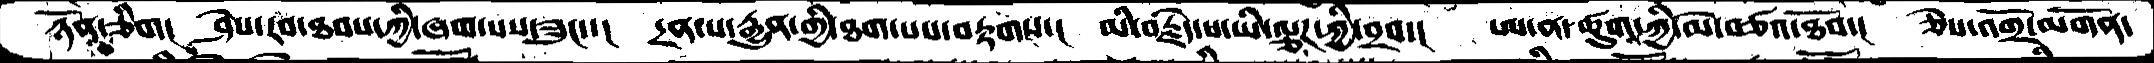ཉོན་ཅིག།  ཤེས་རབ་ཐབས་ཀྱི་ཞག་པས་ཟུང་་།  དྲན་པ་རྒྱུན་གྱི་ཐག་པས་བརྟགས་།  མི་བརྗེད་པ་ཡི་ལྕཌ་ཀྱི་བྲབ་།  ཨ་ན་ཚུག་ཀྱི་མེ་བཙའ་ཐོབ་།  ཅེས་འགྲོ་མགོན་
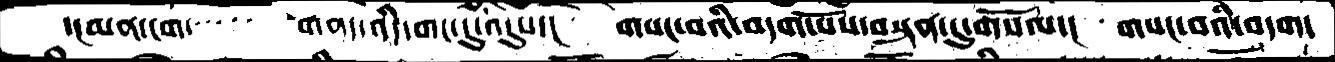་།མན་ངག་    གནད་འདི་གང་དུ་འདུས་། གསང་བའི་བདག་པོས་བསྟན་དུ་གསོལ་། གསང་བའི་བདག་
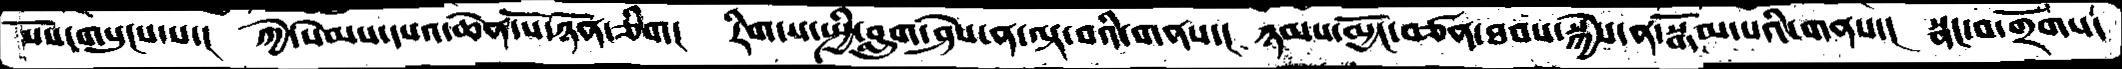པོས་གསུངས་པ་།  ཀྱེ་སེམས་དཔའ་ཆེན་པོ་ཉོན་ཅིག།  རིག་པ་སྤྱི་བླུག་ཤེས་ན་ལྟ་བའི་གནས་།  ཉམས་མྱོང་བཙན་ཐབས་སྐྱེས་ན་སྒོམ་པའི་གནས་།  སྣང་བ་གྲོགས་
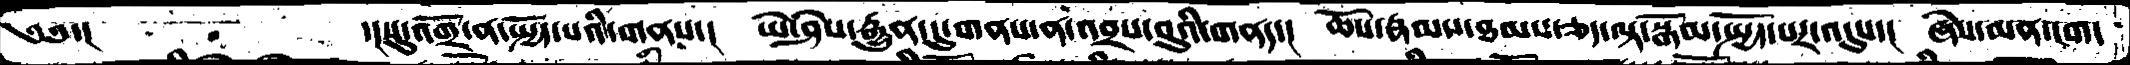༄༅་།      ་།སུ་འགྲོ་ན་སྤྱོད་པའི་གནས་།   ཡེ་ཤེས་རྒྱུན་དུ་གནས་ན་འབྲས་བུའི་གནད་།  ཆོས་རྣམས་ཐམས་ཅད་ལྟ་སྒོམ་སྤྱོད་པར་འདུས་།  ཞེས་མན་ངག་
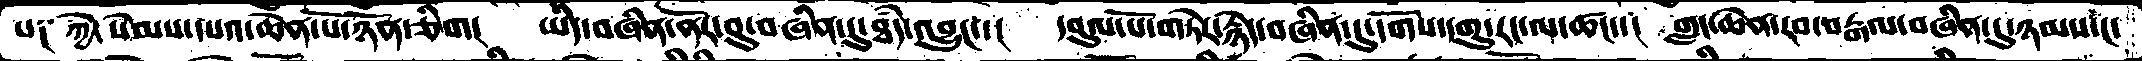པ༑  ཀྱེ་སེམས་དཔའ་ཆེན་པོ་ཉོན་ཅིག།  ཡིད་བཞིན་ནོར་བུ་བཞིན་དུ་ཐཾད་འབྱུང་་།  དབུལ་པོ་གཏེར་རྙེད་བཞིན་དུ་དགོས་དགུ་རང་ལ་ཚང་་།  གླང་ཆེན་རབ་བརྒལ་བཞིན་དུ་ཉམས་།
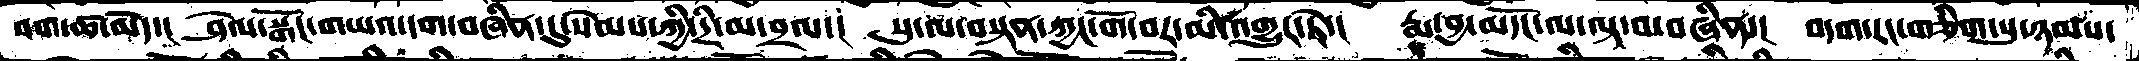བག་ཚ་མེད་།  ཤེལ་སྒོང་གཡའ་དག་བཞིན་དུ་སེམས་ཀྱི་དྲི་མ་བྲལ་།  སུ་ལ་བསྟན་ཀྱང་གོ་བར་མི་འགྱུར་ཏེ་།  རྨ་བྱ་མདོང་ལ་ལྟ་བ་བཞིན་།  བདག་རང་གཅིག་པུ་ཉམས་
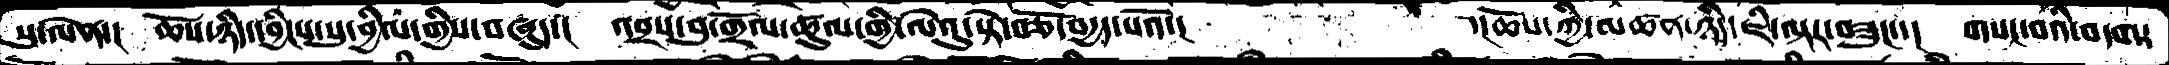སུ་ལེན་།  ཆོས་ཉིད་དབྱིངས་སུ་བྱིལ་གྱིས་བཞུད་།  འབྲས་བུ་གྲོལ་ཚུལ་གྱི་ལེའུ་སྟེ་བཅོ་བདྱད་པའོ་།      ་།་ཆོས་ཀྱི་མཚན་ཉིད་ཇི་ལྟར་བཟུང་་།  གསང་བའི་བདག་
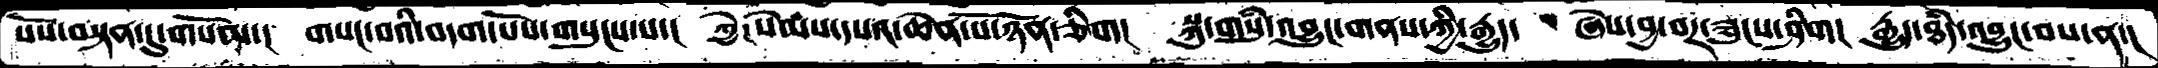པོས་བསྟན་དུ་གསོམ་།  གསང་བའི་བདག་པོས་གསུངས་པ་།  ཀྱེ་སེམས་དཔའ་ཆེན་པོ་ཉོན་ཅིག།   སྐུ་གསུཾ་འབྱུང་གནས་ཀྱི་རྒྱུད་  ཞེས་བྱ་བར་ཟུངས་ཤིག།  རྒྱུད་ཐཾད་འབྱུང་བས་ན་།
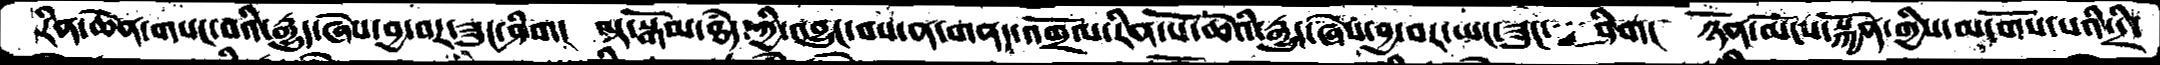རིན་ཆེན་གསང་བའི་རྒྱུད་ཞེས་བྱ་བར་ཟུང་ཤིག།  ལྟ་སྒོམ་ཐཾད་ཀྱི་འབྱུང་བས་ན་གནད་འཁྲོལ་རིན་པོ་ཆེའི་རྒྱུད་ཞེས་བྱ་བར་ཡང་ཟུང་  ཤིག།  ཉོན་མོངས་སྐྱོན་གྱིས་མ་གོས་པའི་དྲི་
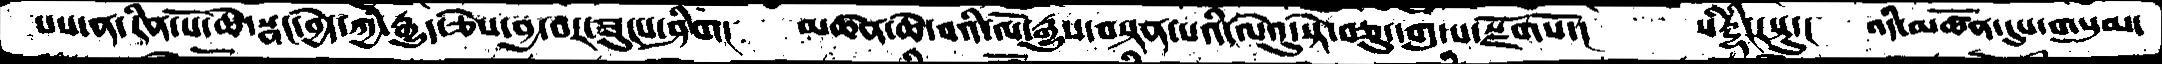པས་ན་རིན་པོ་ཆེ་སྣང་བྱེད་ཀྱི་རྒྱུད་ཅེས་བྱ་བར་ཟུངས་ཤིག།  མཚན་ཆེ་བའི་ལོ་རྒྱུས་བསྟན་པའི་ལེའུ་སྟེ་དགུ་པ་སྫོགསོ་།  སིརྡྷི་རསྟུ་།  འདི་མཚོན་དུས་གསུམ་
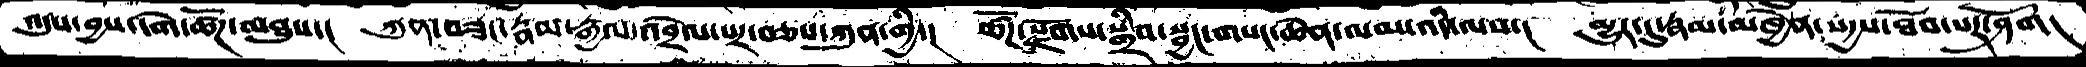འདུས་བྱས་དགེ་ཚོཌ་མཐུས་།  ཀུན་བཟང་རྣམ་རྒྱལ་འབྲེལ་པར་བཅས་ཀུན་གྱི་།  ཚོཌ་སྫོགས་སྒྲིབ་སྦྱང་གསང་ཆེན་ལམ་འདི་ལས་།  མྱུར་དུ་རྣམ་མཁྱེན་སདྱས་ཐོབ་པར་ཤོག།
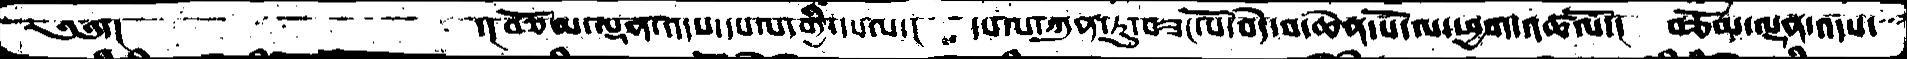༄༅་།       ་།བཅོམ་ལྡན་འདས་དཔལ་གྱི་དཔལ་།  དཔལ་ཀུན་ཏུ་བཟང་པོ་བདེ་བ་ཆེན་པོ་ལ་ཕྱག་འཚལོ་།  བཅོམ་ལྡན་འདས་
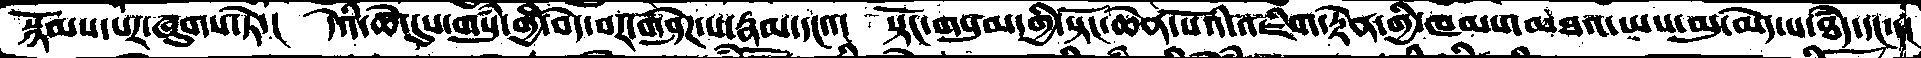སྙོམས་པར་ཞུགས་ཏེ་།  དེའི་ཚེ་དུས་གསུཾ་གྱི་བདེ་བར་གཤེཌ་པ་རྣམ་དང་་།  སྟོང་གསུམ་གྱི་སྟོང་ཆེན་པོའི་འཇིག་རྟེན་གྱི་ཁམས་མཐའ་ཡས་མུ་མེད་པ་ཐཾད་དང་་།
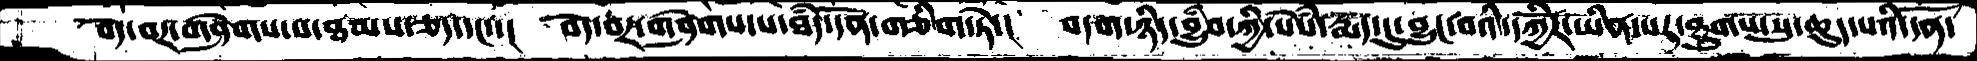བདེ་བར་གཤེགས་པ་ཐམས་ཅད་དང་་།  བདེ་བར་གཤེགས་པ་ཐཾད་དོན་གཅིག་ཏེ་།  བདག་ཉིད་བྱུཾབ་ཀྱི་སེཾས་རྨད་དུ་བྱུང་བའི་དཀྱིོར་ཡིན་པར་ཐུགས་སུ་ཆུད་པའི་དོན་
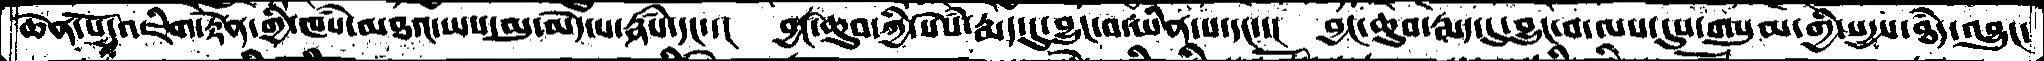ཆེན་པོ་འཇིག་རྟེན་གྱི་ཁཾས་མཐའ་ཡས་མུ་མེད་པ་རྣཾས་དང་་།  བྱང་ཆུབ་ཀྱི་སེསཾ་རྨད་དུ་བྱུང་བ་ཡིན་པ་དང་་།  བྱང་ཆུབ་་རྨད་དུ་བྱུང་བ་ལས་དུས་གསུམ་གྱི་སདྱས་ཐཾད་འབྱུང་
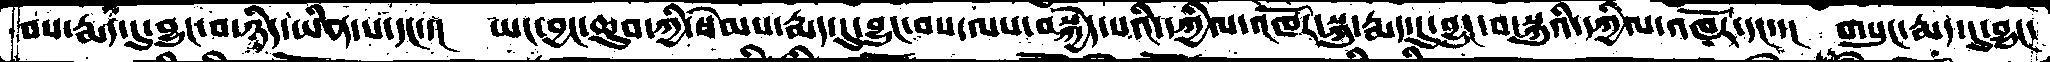བས་རྨད་དུ་བྱུང་བ་ཉིད་ཡིན་པ་དང་་།  ཡང་བྱང་ཆུབ་ཀྱི་སེམས་་རྨད་དུ་བྱུང་བས་ལས་བསྐྱེད་པའི་དཀྱིལ་འཁོར་སྐུ་རྨད་དུ་བྱུང་བ་སྐུའི་དཀྱིལ་འཁོར་དང་་།  གསུང་རྨད་དུ་བྱུང་
